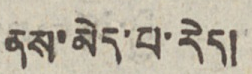ནས་མེད་པ་རེད།
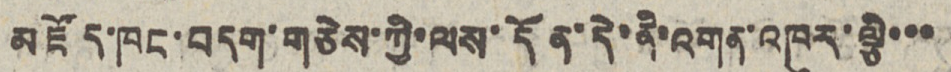མཛོད་ཁང་བདག་གཅེས་ཀྱི་ལས་དོན་དེ་ནི་འགན་འཁུར་ལྕི་་་་
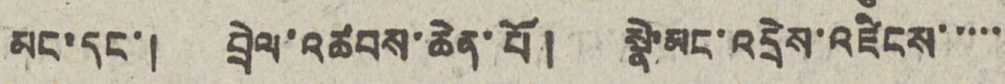མང་དང་། བྲེལ་འཚབས་ཆེན་པོ། སྣེ་མང་འདྲེས་འཛེངས་་་་་
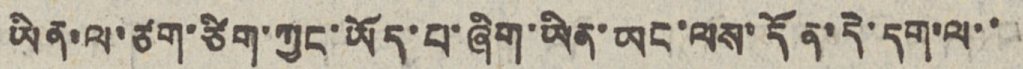ཡིན་ལ་ཙག་ཙིག་ཀྱང་ཡོད་པ་ཞིག་ཡིན་ཡང་ལས་དོན་དེ་དག་ལ་་
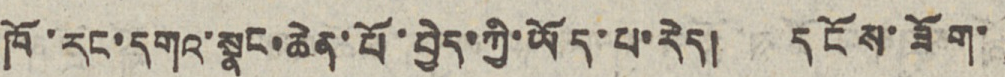ཁོ་རང་དགའ་སྣང་ཆེན་པོ་བྱེད་ཀྱི་ཡོད་པ་རེད། དངོས་ཟོག་
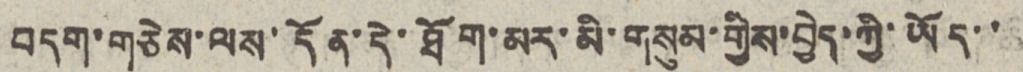བདག་གཅེས་ལས་དོན་དེ་ཐོག་མར་མི་གསུམ་གྱིས་བྱེད་ཀྱི་ཡོད་་
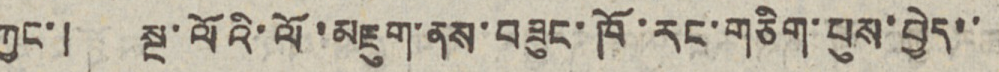ཀྱང་། སྔ་ལོའི་ལོ་མཇུག་ནས་བཟུང་ཁོ་རང་གཅིག་པུས་བྱེད་་
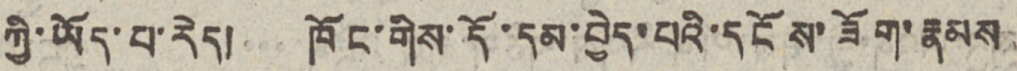ཀྱི་ཡོད་པ་རེད། ཁོང་གིས་དོ་དམ་བྱེད་པའི་དངོས་ཟོག་རྣམས
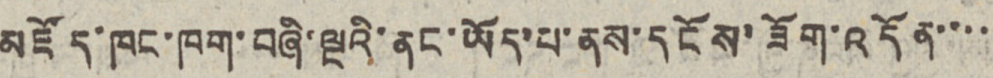མཛོད་ཁང་ཁག་བཞི་ལྔའི་ནང་ཡོད་པ་ནས་དངོས་ཟོག་འདོན་་་་
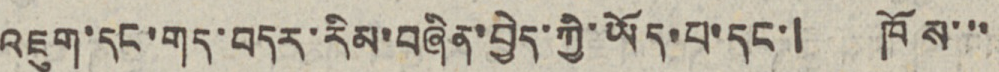འཇུག་དང་གད་བདར་རིམ་བཞིན་བྱེད་ཀྱི་ཡོད་པ་དང་། ཁོས་་་
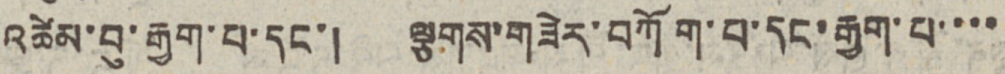འཚེམ་བུ་རྒྱག་པ་དང་། ལྕགས་གཟེར་བཀོག་པ་དང་རྒྱག་པ་་་་
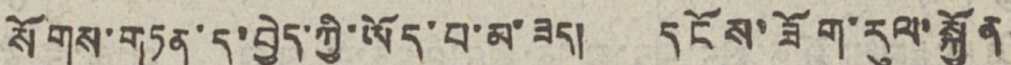སོགས་གཏན་དུ་བྱེད་ཀྱི་ཡོད་པ་མ་ཟད། དངོས་ཟོག་རུལ་སྐྱོན
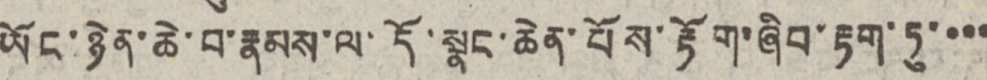ཡོང་ཉེན་ཆེ་བ་རྣམས་ལ་དོ་སྣང་ཆེན་པོས་རྟོག་ཞིབ་རྟག་ཏུ་་་་
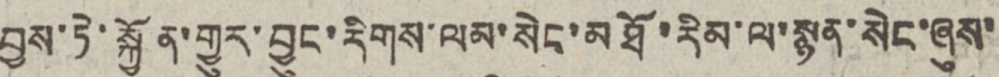བྱས་ཏེ་སྐྱོན་གྱུར་བྱུང་རིགས་ལམ་སེང་མཐོ་རིམ་ལ་སྙན་སེང་ཞུས་
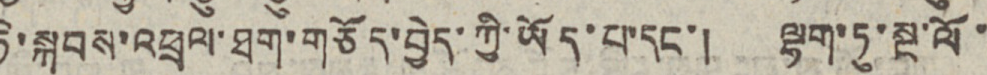ཏེ་སྐབས་འཕྲལ་ཐག་གཅོད་བྱེད་ཀྱི་ཡོད་པ་དང་། ལྷག་ཏུ་སྔ་ལོ་
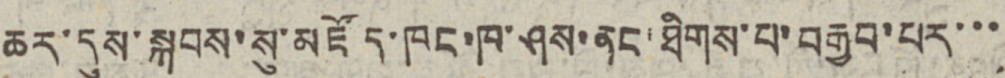ཆར་དུས་སྐབས་སུ་མཛོད་ཁང་ཁ་ཤས་ནང་ཐིགས་པ་བརྒྱབ་པར་་་
